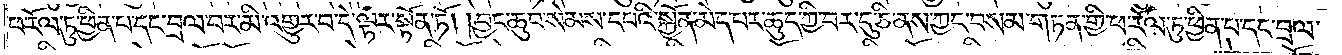ཕ་རོལ་ཏུ་ཕྱིན་པ་དང་བྲལ་བར་མི་འགྱུར་བ་དེ་ལྟར་སྟོན་ཏོ། །བྱང་ཆུབ་སེམས་དཔའི་སྐྱོན་མེད་པར་ཆུད་ཀྱི་བར་དུ་ཅི་ནས་ཀྱང་བསམ་གཏན་གྱི་ཕ་རོལ་ཏུ་ཕྱིན་པ་དང་བྲལ་
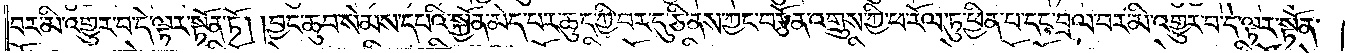བར་མི་འགྱུར་བ་དེ་ལྟར་སྟོན་ཏོ། །བྱང་ཆུབ་སེམས་དཔའི་སྐྱོན་མེད་བར་ཆུད་ཀྱི་བར་དུ་ཅི་ནས་ཀྱང་བརྩོན་འགྲུས་ཀྱི་ཕ་རོལ་ཏུ་ཕྱིན་པ་དང་བྲལ་བར་མི་འགྱུར་བ་དེ་ལྟར་སྟོན་
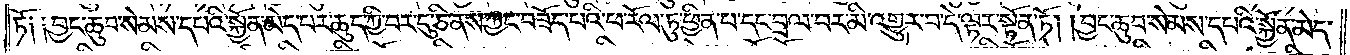ཏོ༑ ༑བྱང་ཆུབ་སེམས་དཔའི་སྐྱོན་མེད་པར་ཆུད་ཀྱི་བར་དུ་ཅི་ནས་ཀྱང་བཟོད་པའི་ཕ་རོལ་ཏུ་ཕྱིན་པ་དང་བྲལ་བར་མི་འགྱུར་བ་དེ་ལྟར་སྟོན་ཏོ། །བྱང་ཆུབ་སེམས་དཔའི་སྐྱོན་མེད་
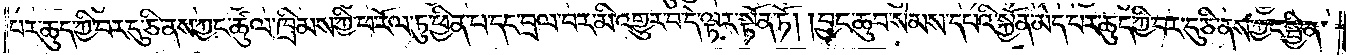པར་ཆུད་ཀྱི་བར་དུ་ཅི་ནས་ཀྱང་ཚུལ་ཁྲིམས་ཀྱི་ཕ་རོལ་ཏུ་ཕྱིན་པ་དང་བྲལ་བར་མི་འགྱུར་བ་དེ་ལྟར་སྟོན་ཏོ། །བྱང་ཆུབ་སེམས་དཔའི་སྐྱོན་མེད་པར་ཆུད་ཀྱི་བར་དུ་ཅི་ནས་ཀྱང་སྦྱིན་
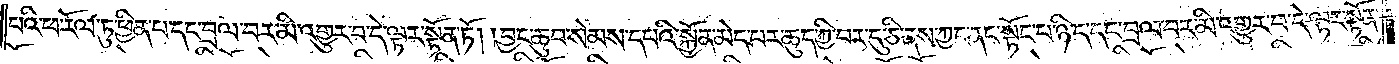པའི་ཕ་རོལ་ཏུ་ཕྱིན་པ་དང་བྲལ་བར་མི་འགྱུར་བ་དེ་ལྟར་སྟོན་ཏོ། །བྱང་ཆུབ་སེམས་དཔའི་སྐྱོན་མེད་པར་ཆུད་ཀྱི་བར་དུ་ཅི་ནས་ཀྱང་ནང་སྟོང་པ་ཉིད་དང་བྲལ་བར་མི་འགྱུར་བ་དེ་ལྟར་སྟོན་
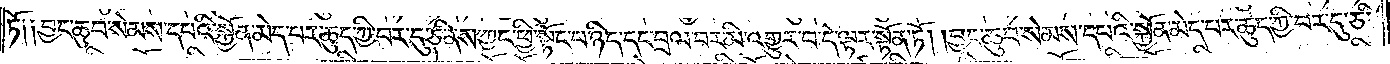ཏོ༑ ༑བྱང་ཆུབ་སེམས་དཔའི་སྐྱོན་མེད་པར་ཆུད་ཀྱི་བར་དུ་ཅི་ནས་ཀྱང་ཕྱི་སྟོང་པ་ཉིད་དང་བྲལ་བར་མི་འགྱུར་བ་དེ་ལྟར་སྟོན་ཏོ། །བྱང་ཆུབ་སེམས་དཔའི་སྐྱོན་མེད་པར་ཆུད་ཀྱི་བར་དུ་ཅི་
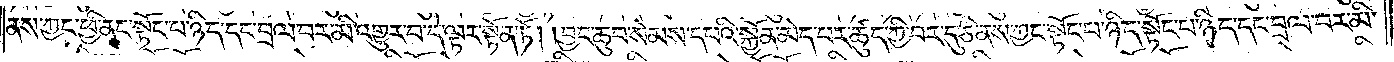ནས་ཀྱང་ཕྱི་ནང་སྟོང་པ་ཉིད་དང་བྲལ་བར་མི་འགྱུར་བ་དེ་ལྟར་སྟོན་ཏོ། །བྱང་ཆུབ་སེམས་དཔའི་སྐྱོན་མེད་པར་ཆུད་ཀྱི་བར་དུ་ཅི་ནས་ཀྱང་སྟོང་པ་ཉིད་སྟོང་པ་ཉིད་དང་བྲལ་བར་མི་
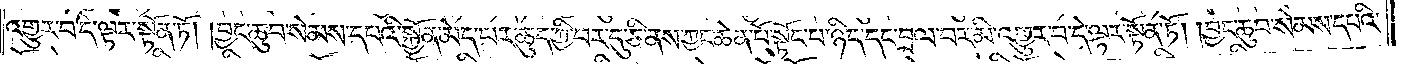འགྱུར་བ་དེ་ལྟར་སྟོན་ཏོ། །བྱང་ཆུབ་སེམས་དཔའི་སྐྱོན་མེད་པར་ཆུད་ཀྱི་བར་དུ་ཅི་ནས་ཀྱང་ཆེན་པོ་སྟོང་པ་ཉིད་དང་བྲལ་བར་མི་འགྱུར་བ་དེ་ལྟར་སྟོན་ཏོ། །བྱང་ཆུབ་སེམས་དཔའི་
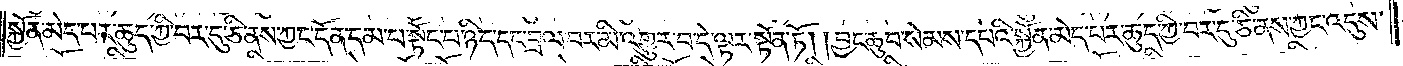སྐྱོན་མེད་པར་ཆུད་ཀྱི་བར་དུ་ཅི་ནས་ཀྱང་དོན་དམ་པ་སྟོང་པ་ཉིད་དང་བྲལ་བར་མི་འགྱུར་བ་དེ་ལྟར་སྟོན་ཏོ། །བྱང་ཆུབ་སེམས་དཔའི་སྐྱོན་མེད་པར་ཆུད་ཀྱི་བར་དུ་ཅི་ནས་ཀྱང་འདུས་
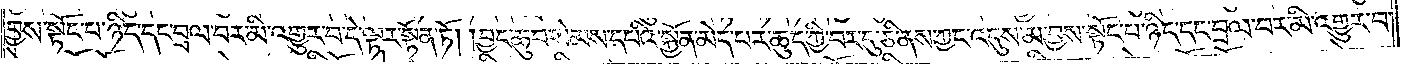བྱས་སྟོང་པ་ཉིད་དང་བྲལ་བར་མི་འགྱུར་བ་དེ་ལྟར་སྟོན་ཏོ། །བྱང་ཆུབ་སེམས་དཔའི་སྐྱོན་མེད་པར་ཆུད་ཀྱི་བར་དུ་ཅི་ནས་ཀྱང་འདུས་མ་བྱས་སྟོང་པ་ཉིད་དང་བྲལ་བར་མི་འགྱུར་བ་
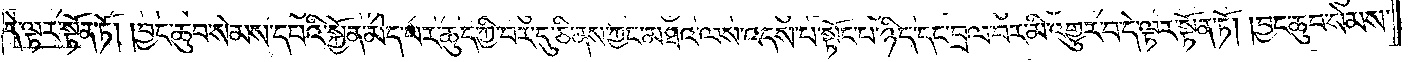དེ་ལྟར་སྟོན་ཏོ། །བྱང་ཆུབ་སེམས་དཔའི་སྐྱོན་མེད་པར་ཆུད་ཀྱི་བར་དུ་ཅི་ནས་ཀྱང་མཐའ་ལས་འདས་པ་སྟོང་པ་ཉིད་དང་བྲལ་བར་མི་འགྱུར་བ་དེ་ལྟར་སྟོན་ཏོ། །བྱང་ཆུབ་སེམས་
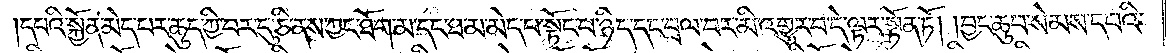དཔའི་སྐྱོན་མེད་པར་ཆུད་ཀྱི་བར་དུ་ཅི་ནས་ཀྱང་ཐོག་མ་དང་ཐ་མ་མེད་པ་སྟོང་པ་ཉིད་དང་བྲལ་བར་མི་འགྱུར་བ་དེ་ལྟར་སྟོན་ཏོ། །བྱང་ཆུབ་སེམས་དཔའི་
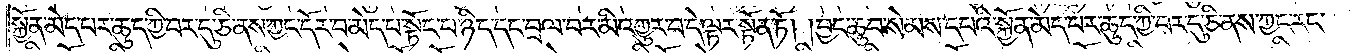སྐྱོན་མེད་པར་ཆུད་ཀྱི་བར་དུ་ཅི་ནས་ཀྱང༌། དོར་བ་མེད་པ་སྟོང་པ་ཉིད་དང་བྲལ་བར་མི་འགྱུར་བ་དེ་ལྟར་སྟོན་ཏོ། །བྱང་ཆུབ་སེམས་དཔའི་སྐྱོན་མེད་པར་ཆུད་ཀྱི་བར་དུ་ཅི་ནས་ཀྱང་རང་
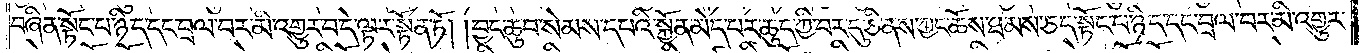བཞིན་སྟོང་པ་ཉིད་དང་བྲལ་བར་མི་འགྱུར་བ་དེ་ལྟར་སྟོན་ཏོ། །བྱང་ཆུབ་སེམས་དཔའི་སྐྱོན་མེད་པར་ཆུད་ཀྱི་བར་དུ་ཅི་ནས་ཀྱང་ཆོས་ཐམས་ཅད་སྟོང་པ་ཉིད་དང་བྲལ་བར་མི་འགྱུར་
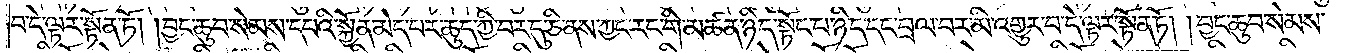བ་དེ་ལྟར་སྟོན་ཏོ། །བྱང་ཆུབ་སེམས་དཔའི་སྐྱོན་མེད་པར་ཆུད་ཀྱི་བར་དུ་ཅི་ནས་ཀྱང་རང་གི་མཚན་ཉིད་སྟོང་པ་ཉིད་དང་བྲལ་བར་མི་འགྱུར་བ་དེ་ལྟར་སྟོན་ཏོ། །བྱང་ཆུབ་སེམས་
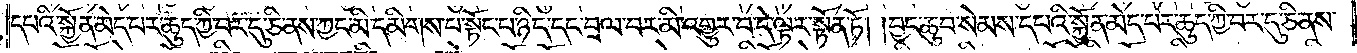དཔའི་སྐྱོན་མེད་པར་ཆུད་ཀྱི་བར་དུ་ཅི་ནས་ཀྱང་མི་དམིགས་པ་སྟོང་པ་ཉིད་དང་བྲལ་བར་མི་འགྱུར་བ་དེ་ལྟར་སྟོན་ཏོ། །བྱང་ཆུབ་སེམས་དཔའི་སྐྱོན་མེད་པར་ཆུད་ཀྱི་བར་དུ་ཅི་ནས་
